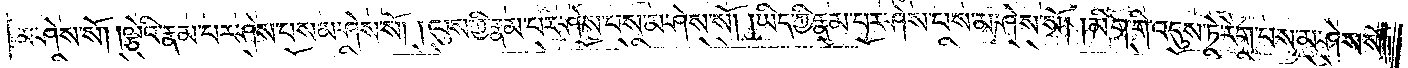མ་ཤེས་སོ། །ལྕེའི་རྣམ་པར་ཤེས་པས་མ་ཤེས་སོ། །ལུས་ཀྱི་རྣམ་པར་ཤེས་པས་མ་ཤེས་སོ། །ཡིད་ཀྱི་རྣམ་པར་ཤེས་པས་མ་ཤེས་སོ། །མིག་གི་འདུས་ཏེ་རེག་པས་མ་ཤེས་སོ། །
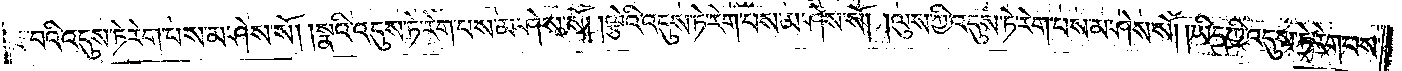རྣ་བའི་འདུས་ཏེ་རེག་པས་མ་ཤེས་སོ། །སྣའི་འདུས་ཏེ་རེག་པས་མ་ཤེས་སོ། །ལྕེའི་འདུས་ཏེ་རེག་པས་མ་ཤེས་སོ། །ལུས་ཀྱི་འདུས་ཏེ་རེག་པས་མ་ཤེས་སོ། །ཡིད་ཀྱི་འདུས་ཏེ་རེག་པས་
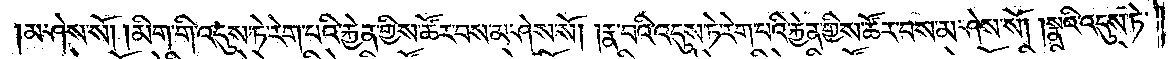མ་ཤེས་སོ། །མིག་གི་འདུས་ཏེ་རེག་པའི་རྐྱེན་གྱིས་ཚོར་བས་མ་ཤེས་སོ། །རྣ་བའི་འདུས་ཏེ་རེག་པའི་རྐྱེན་གྱིས་ཚོར་བས་མ་ཤེས་སོ། །སྣའི་འདུས་ཏེ་
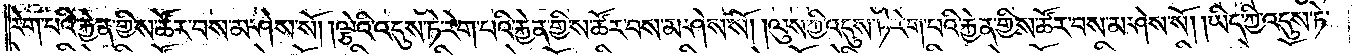རེག་པའི་རྐྱེན་གྱིས་ཚོར་བས་མ་ཤེས་སོ། །ལྕེའི་འདུས་ཏེ་རེག་པའི་རྐྱེན་གྱིས་ཚོར་བས་མ་ཤེས་སོ། །ལུས་ཀྱི་འདུས་ཏེ་རེག་པའི་རྐྱེན་གྱིས་ཚོར་བས་མ་ཤེས་སོ། །ཡིད་ཀྱི་འདུས་ཏེ་
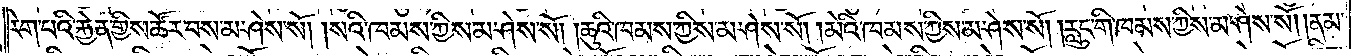རེག་པའི་རྐྱེན་གྱིས་ཚོར་བས་མ་ཤེས་སོ། །སའི་ཁམས་ཀྱིས་མ་ཤེས་སོ། །ཆུའི་ཁམས་ཀྱིས་མ་ཤེས་སོ། །མེའི་ཁམས་ཀྱིས་མ་ཤེས་སོ། །རླུང་གི་ཁམས་ཀྱིས་མ་ཤེས་སོ། །ནམ་
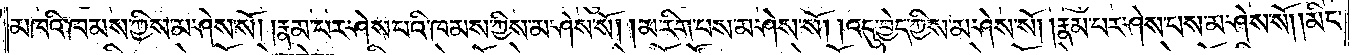མཁའི་ཁམས་ཀྱིས་མ་ཤེས་སོ། །རྣམ་པར་ཤེས་པའི་ཁམས་ཀྱིས་མ་ཤེས་སོ། །མ་རིག་པས་མ་ཤེས་སོ། །འདུ་བྱེད་ཀྱིས་མ་ཤེས་སོ། །རྣམ་པར་ཤེས་པས་མ་ཤེས་སོ། །མིང་
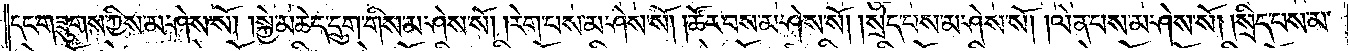དང་གཟུགས་ཀྱིས་མ་ཤེས་སོ། །སྐྱེ་མཆེད་དྲུག་གིས་མ་ཤེས་སོ། །རེག་པས་མ་ཤེས་སོ། །ཚོར་བས་མ་ཤས་སོ། །སྲེད་པས་མ་ཤེས་སོ། །ལེན་པས་མ་ཤེས་སོ། །སྲིད་པས་མ་
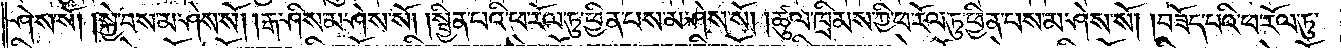ཤེས་སོ། །སྐྱེ་བས་མ་ཤེས་སོ། །རྒ་ཤིས་མ་ཤེས་སོ། །སྦྱིན་པའི་ཕ་རོལ་ཏུ་ཕྱིན་པས་མ་ཤེས་སོ། །ཚུལ་ཁྲིམས་ཀྱི་ཕ་རོལ་ཏུ་ཕྱིན་པས་མ་ཤེས་སོ། །བཟོད་པའི་ཕ་རོལ་ཏུ་
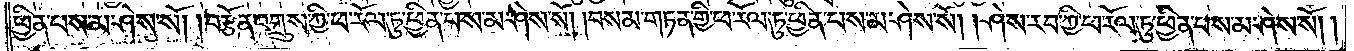ཕྱིན་པས་མ་ཤེས་སོ། །བརྩོན་འགྲུས་ཀྱི་ཕ་རོལ་ཏུ་ཕྱིན་པས་མ་ཤེས་སོ། །བསམ་གཏན་གྱི་ཕ་རོལ་ཏུ་ཕྱིན་པས་མ་ཤེས་སོ། །ཤེས་རབ་ཀྱི་ཕ་རོལ་ཏུ་ཕྱིན་པས་མ་ཤེས་སོ། །
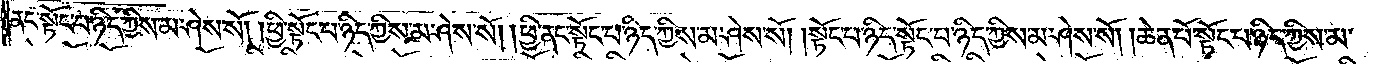ནང་སྟོང་པ་ཉིད་ཀྱིས་མ་ཤེས་སོ། །ཕྱི་སྟོང་པ་ཉིད་ཀྱིས་མ་ཤེས་སོ། །ཕྱི་ནང་སྟོང་པ་ཉིད་ཀྱིས་མ་ཤེས་སོ། །སྟོང་པ་ཉིད་སྟོང་པ་ཉིད་ཀྱིས་མ་ཤེས་སོ། །ཆེན་པོ་སྟོང་པ་ཉིད་ཀྱིས་མ་
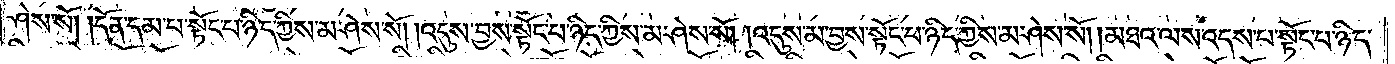ཤེས་སོ། །དོན་དམ་པ་སྟོང་པ་ཉིད་ཀྱིས་མ་ཤེས་སོ། །འདུས་བྱས་སྟོང་པ་ཉིད་ཀྱིས་མ་ཤེས་སོ། །འདུས་མ་བྱས་སྟོང་པ་ཉིད་ཀྱིས་མ་ཤེས་སོ། །མཐའ་ལས་འདས་པ་སྟོང་པ་ཉིད་
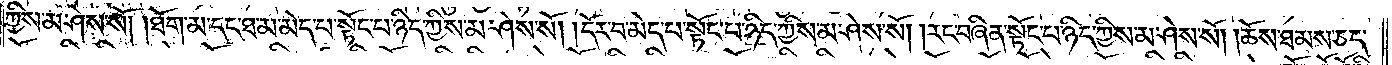ཀྱིས་མ་ཤེས་སོ། །ཐོག་མ་དང་ཐ་མ་མེད་པ་སྟོང་པ་ཉིད་ཀྱིས་མ་ཤེས་སོ། །དོར་བ་མེད་པ་སྟོང་པ་ཉིད་ཀྱིས་མ་ཤེས་སོ། །རང་བཞིན་སྟོང་པ་ཉིད་ཀྱིས་མ་ཤེས་སོ། །ཆོས་ཐམས་ཅད་
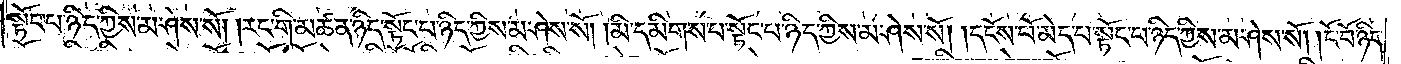སྟོང་པ་ཉིད་ཀྱིས་མ་ཤེས་སོ། །རང་གི་མཚན་ཉིད་སྟོང་པ་ཉིད་ཀྱིས་མ་ཤེས་སོ། །མི་དམིགས་པ་སྟོང་པ་ཉིད་ཀྱིས་མ་ཤེས་སོ། །དངོས་པོ་མེད་པ་སྟོང་པ་ཉིད་ཀྱིས་མ་ཤེས་སོ། །ངོ་བོ་ཉིད་
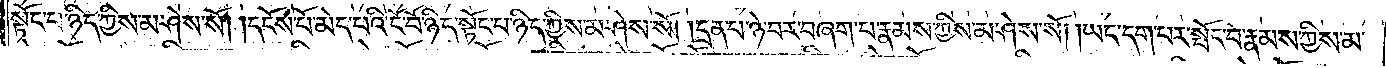སྟོང་པ་ཉིད་ཀྱིས་མ་ཤེས་སོ། །དངོས་པོ་མེད་པའི་ངོ་བོ་ཉིད་སྟོང་པ་ཉིད་ཀྱིས་མ་ཤེས་སོ། །དྲན་པ་ཉེ་བར་བཞག་པ་རྣམས་ཀྱིས་མ་ཤེས་སོ། །ཡང་དག་པར་སྤོང་བ་རྣམས་ཀྱིས་མ་
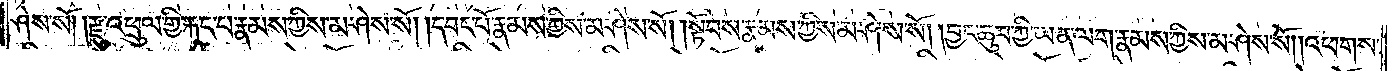ཤེས་སོ། །རྫུ་འཕྲུལ་གྱི་རྐང་པ་རྣམས་ཀྱིས་མ་ཤེས་སོ། །དབང་པོ་རྣམས་ཀྱིས་མ་ཤེས་སོ། །སྟོབས་རྣམས་ཀྱིས་མ་ཤེས་སོ། །བྱང་ཆུབ་ཀྱི་ཡན་ལག་རྣམས་ཀྱིས་མ་ཤེས་སོ། །འཕགས་
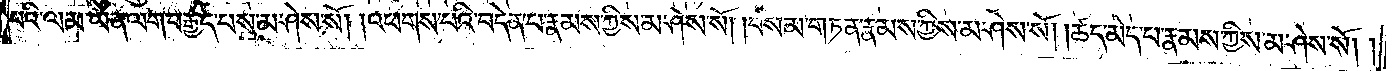པའི་ལམ་ཡན་ལག་བརྒྱད་པས་མ་ཤེས་སོ། །འཕགས་པའི་བདེན་པ་རྣམས་ཀྱིས་མ་ཤེས་སོ། །བསམ་གཏན་རྣམས་ཀྱིས་མ་ཤེས་སོ། །ཚད་མེད་པ་རྣམས་ཀྱིས་མ་ཤེས་སོ། །
